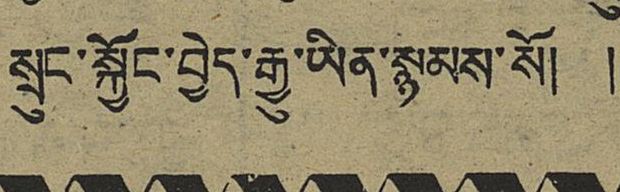སྲུང་སྐྱོང་བྱེད་རྒྱུ་ཡིན་སྙམས་སོ། །
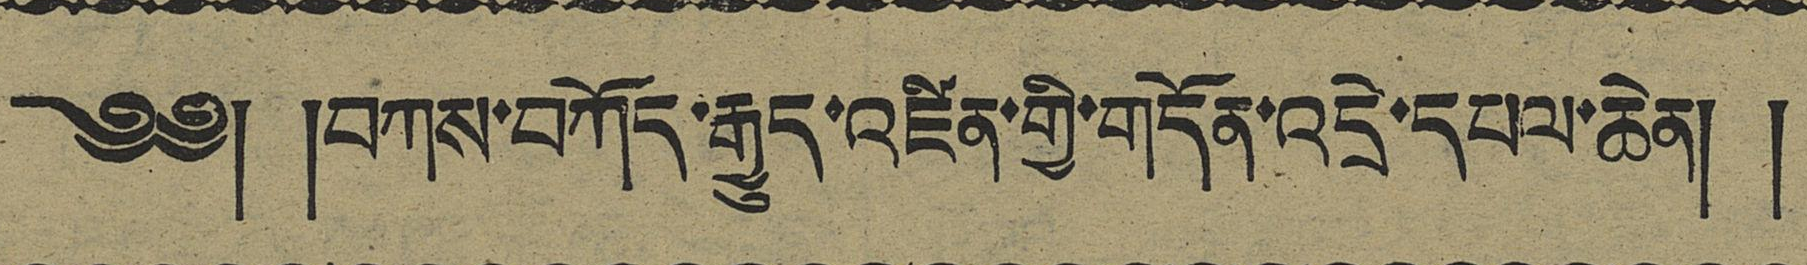༄༅། །བཀས་བཀོད་རྒྱུད་འཛིན་གྱི་གདོན་འདྲེ་དཔལ་ཆེན།
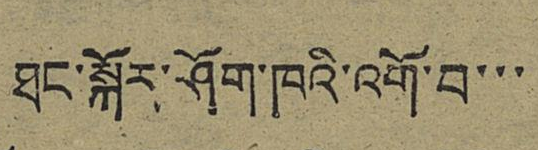ཐང་སྐོར་ཤོག་ཁའི་འགོ་བ་་་
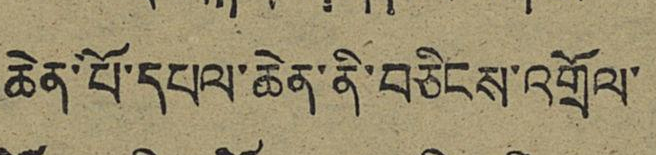ཆེན་པོ་དཔལ་ཆེན་ནི་བཅིངས་འགྲོལ་
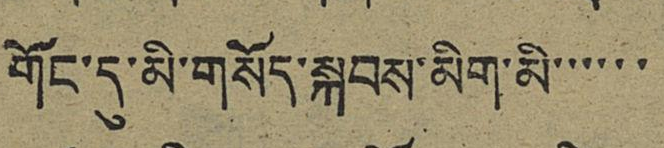གོང་དུ་མི་གསོད་སྐབས་མིག་མི་་་་་་
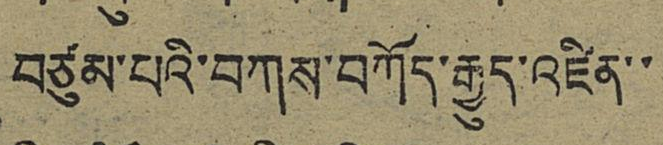བཙུམ་པའི་བཀས་བཀོད་རྒྱུད་འཛིན་་
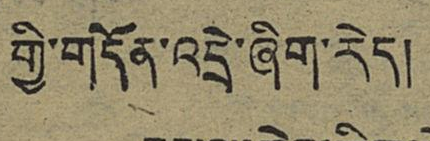གྱི་གདོན་འདྲེ་ཞིག་རེད།
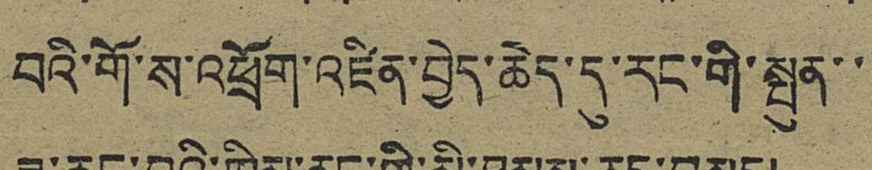བའི་གོ་ས་འཕྲོག་འཛིན་བྱེད་ཆེད་དུ་རང་གི་སྤུན་་
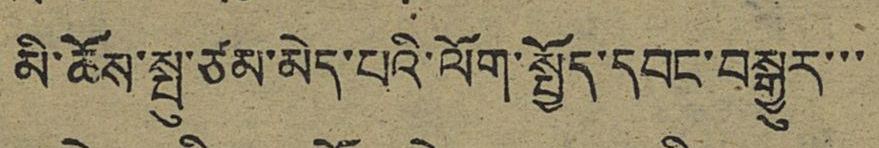མི་ཆོས་སྤུ་ཙམ་མེད་པའི་ལོག་སྤྱོད་དབང་བསྒྱུར་་་
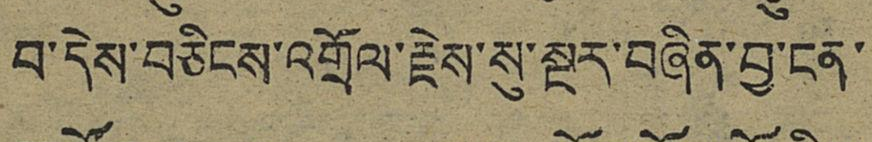བ་དེས་བཅིངས་འགྲོལ་རྗེས་སུ་སྔར་བཞིན་བྱ་ངན་
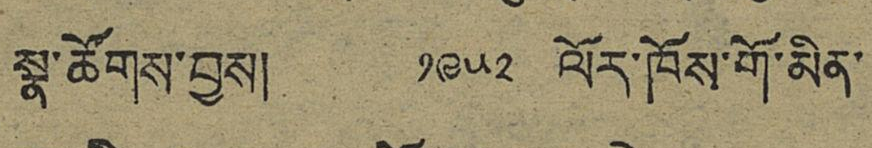སྣ་ཚོགས་བྱས། ༡༩༥༢ ལོར་ཁོས་གོ་མིན་
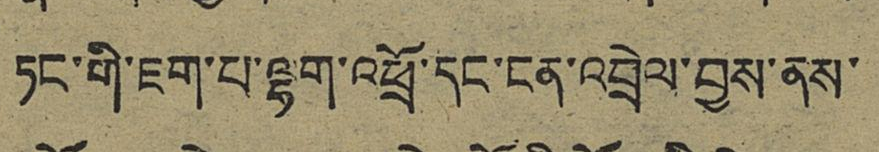ཏང་གི་ཇག་པ་ལྷག་འཕྲོ་དང་ངན་འབྲེལ་བྱས་ནས་
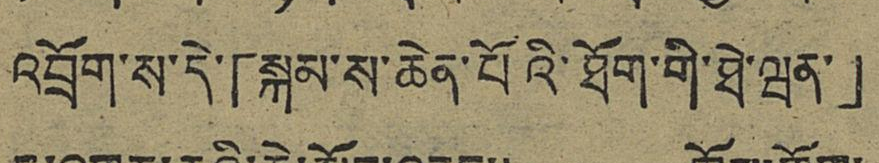འབྲོག་ས་དེ་「སྐམ་ས་ཆེན་པོའི་ཐོག་གི་ཐེ་ཝན་」
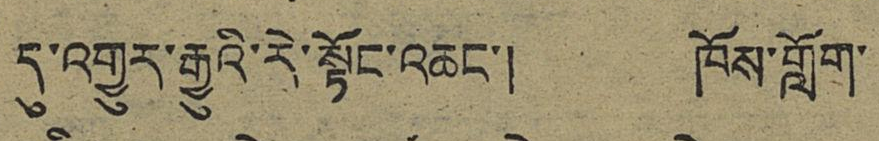དུ་འགྱུར་རྒྱུའི་རེ་སྟོང་འཆང་། ཁོས་གློག་
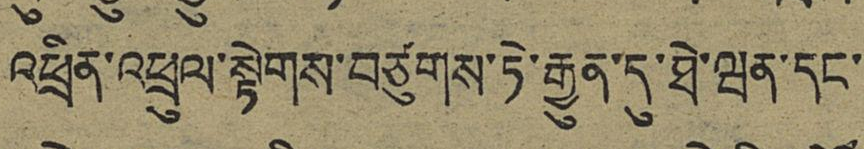འཕྲིན་འཕྲུལ་སྟེགས་བཙུགས་ཏེ་རྒྱུན་དུ་ཐེ་ཝན་དང་
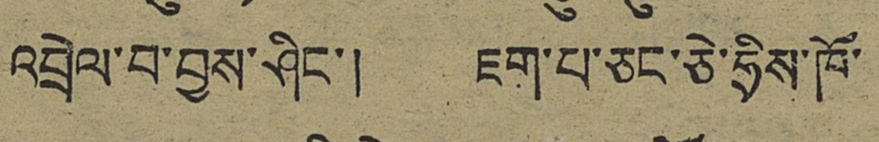འབྲེལ་བ་བྱས་ཤིང་། ཇག་པ་ཅང་ཅེ་ཧྲིས་ཁོ་
